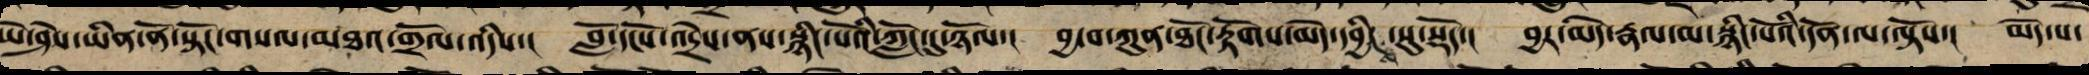ཡེ་ཤེས་ཡིན་ནོ་སྟོང་གསལ་མཐའ་གྲོལ་འདིས་། བློ་དངོས་འདྲེས་ནས་སྙིང་པོའི་ཀློང་དུ་ཉོལ་། བྱ་བ་ཀུན་ཐོང་རྟོག་མེད་དབྱིངས་སུ་སྡོད་། བྱར་མེད་རྣལ་མ་སྙིང་པོའི་དོན་ལ་ལྟོས་། མེད་པ་
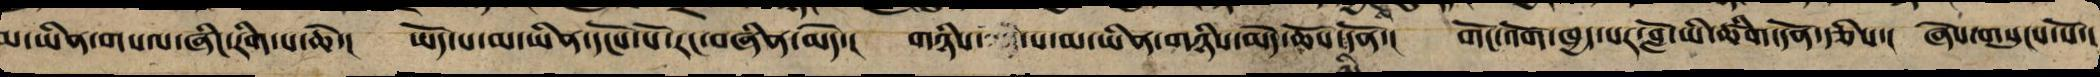མ་ཡིན་གསལ་ཞིང་རིག་པ་ཆེ་། ཡོད་པ་མ་ཡིན་དངོས་པོ་རང་བཞིན་མེད་། གཉིས་ པ་མ་ཡིན་གཉིས་མེད་ཆོས་ཉིད་དོན་། གོང་འོག་ཁྱད་པར་བློ་ཡི་ཚིག་དོན་རྩིས་། ཞེས་གསུངས་སོ་།
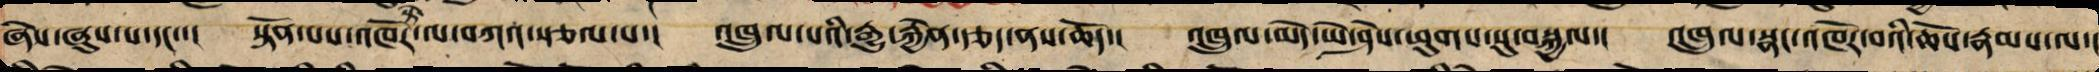ཞེས་ཞུས་པ་དང་་། སྟོན་པས་འཁོར་ལ་བཀའ་སྩལ་པ་། འཁྲུལ་པའི་རྒྱུ་རྐྱེན་རྩད་ནས་ཆོད་། འཁྲུལ་མེད་ཡེ་ཤེས་ཕུགས་སུ་བསྐྱལ་། འཁྲུལ་སྣང་འཁོར་བའི་ཆོས་རྣམས་ལ་།
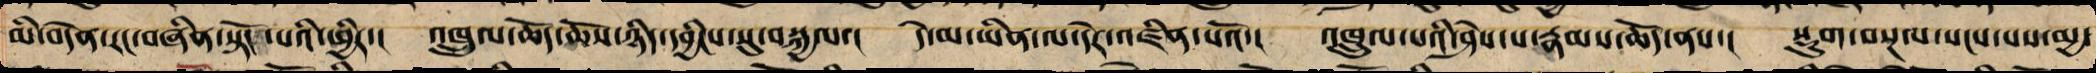མི་བདེན་རང་བཞིན་སྟོང་པའི་ཕྱིར་། འཁྲུལ་ཆོད་ཆོས་ཉིད་དབྱིངས་སུ་བསྐྱལ་། དེ་མ་ཡིན་ལ་དེར་འཛིན་པའོ་། འཁྲུལ་པའི་ཤེས་པ་རྣམས་ཆོད་ནས་། སྡུག་བསྔལ་སངས་པས་མྱ་
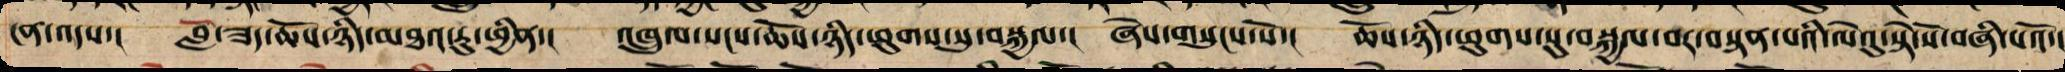ངན་འདས་། བློ་ཟད་ཆོས་ཉིད་མཐའ་རུ་ཕྱིན་། འཁྲུལ་སངས་ཆོས་ཉིད་ཕུགས་སུ་བསྐྱལ་། ཞེས་གསུངས་སོ་། ཆོས་ཉིད་ཕུགས་སུ་བསྐྱལ་བར་བསྟན་པའི་ལེའུ་སྟེ་སོ་བཞི་པའོ་།།
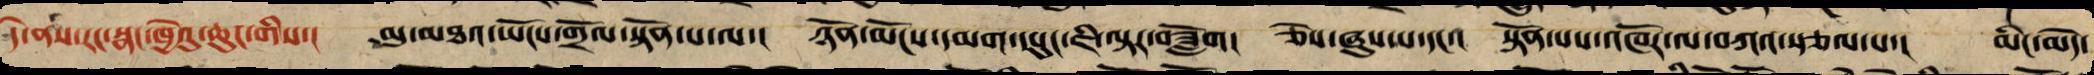དེ་ནས་རང་སྣང་ཁྱེའུ་ཆུང་གིས་། མུ་མཐའ་ཡོངས་གྲོལ་སྟོན་པ་ལ་། ཉོན་མོངས་དམག་དཔུང་ཇི་ལྟར་བཟློག། ཅེས་ཞུས་པ་དང་། སྟོན་པས་འཁོར་ལ་བཀའ་སྩལ་པ་། མིང་མེད་
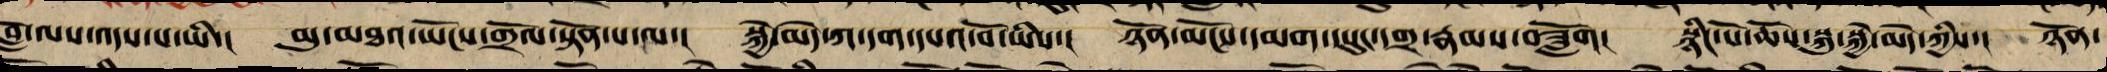བློ་ལས་འདས་པ་ཡི་། མུ་མཐའ་ཡོངས་གྲོལ་སྟོན་པ་ལ་། སྐྱེ་མེད་ཀ་དག་དཔའ་བོ་ཡིས་། ཉོན་མོངས་དམག་དཔུང་དགྲ་རྣམས་བཟློག། སྙིང་པོ་ཆོས་སྐུ་སྐྱེ་མེད་ཀྱིས་། ཉོན་
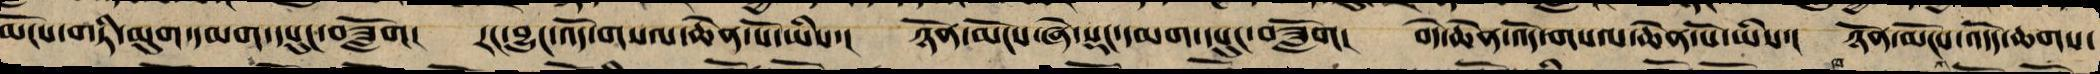མོངས་གཏི་མུག་དམག་དཔུང་བཟློག། རང་བྱུང་འོད་གསལ་ཆེན་པོ་ཡིས་། ཉོན་མོངས་ཞེ་སྡང་དམག་དཔུང་བཟློག། བདེ་ཆེན་འོད་གསལ་ཆེན་པོ་ཡིས་། ཉོན་མོངས་འདོད་ཆགས་
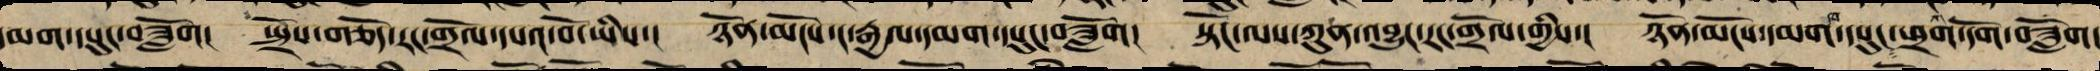དམག་དཔུང་བཟློག། སྤྲོས་གཅོད་རང་གྲོལ་དཔའ་བོ་ཡིས་། ཉོན་མོངས་ང་རྒྱལ་དམག་དཔུང་བཟློག། སྟོང་ལས་ཀུན་འབྱུང་རང་གྲོལ་གྱིས་། ཉོན་མོངས་ཕྲག་དོག་དམག་དཔུང་བཟློག།
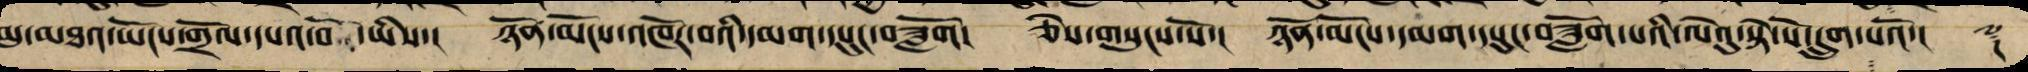མུ་མཐའ་ཡོངས་གྲོལ་དཔའ་བོ་ཡིས་། ཉོན་མོངས་འཁོར་བའི་དམག་དཔུང་བཟློག། ཅེས་གསུངས་སོ་། ཉོན་མོངས་དམག་དཔུང་བཟློག་པའི་ལེའུ་སྟེ་སོ་དྲུག་པའོ་།། ༈
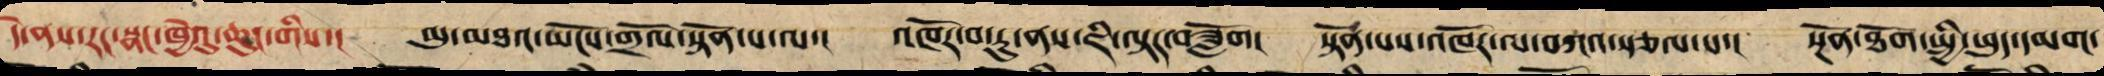དེ་ནས་རང་སྣང་ཁྱེའུ་ཆུང་གིས་། མུ་མཐའ་ཡོངས་གྲོལ་སྟོན་པ་ལ་། འཁོར་བ་རུ་ནས་ཇི་ལྟར་བཟློག། སྟོན་པས་འཁོར་ལ་བཀའ་སྩལ་པ་། སྔོན་ཐོག་སྤྱི་ཕུད་དམག་
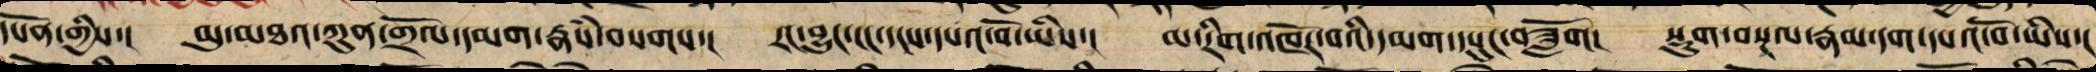དཔོན་གྱིས་། མུ་མཐའ་ཀུན་གྲོལ་དམག་རྣཾས་བསགས་། རང་བྱུང་ངང་དངས་དཔའ་བོ་ཡིས་། མ་རིག་འཁོར་བའི་དམག་དཔུང་བཟློག། སྡུག་བསྔལ་རྣམ་དག་དཔའ་བོ་ཡིས་།
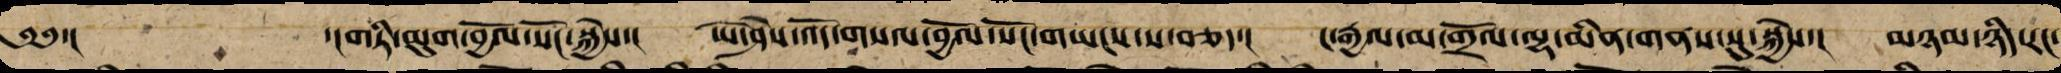༄༅་། ་།གཏི་མུག་བྱོལ་སོང་སྐྱེས་། ཡེ་ཤེས་འོད་གསལ་བྱོལ་སོང་གཡང་ས་བཅད་། ང་རྒྱལ་མ་གྲོལ་ལྷ་མིན་གནས་སུ་སྐྱེས་། མཉམ་ཉིད་རང་
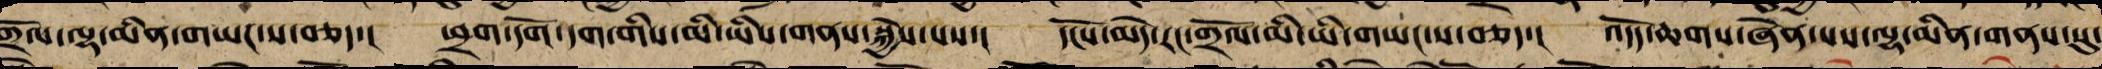གྲོལ་ལྷ་མིན་གཡང་ས་བཅད་། ཕྲག་དོག་དག་གིས་མི་ཡིས་གནས་སྐྱེས་པས་། དངོས་མེད་རང་གྲོལ་མི་ཡི་གཡང་ས་བཅད་། འདོད་ཆགས་ཞེན་པས་ལྷ་མིན་གནས་སུ་
